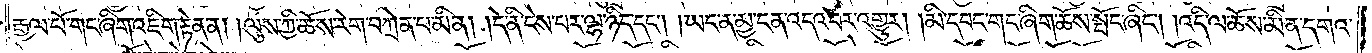རྒྱལ་པོ་གང་ཞིག་འཇིག་རྟེན་ན། །ལུས་ཀྱི་ཆོས་རེག་བཀྲེན་པ་མིན། །དེ་ནི་ངེས་པར་ལྷ་ཉིད་དང༌། །ཡང་ན་མྱ་ངན་འདའ་བར་འགྱུར། །མི་དབང་གང་ཞིག་ཆོས་སྤོང་ཞིང༌། །འདི་ལ་ཆོས་མིན་དགའ་
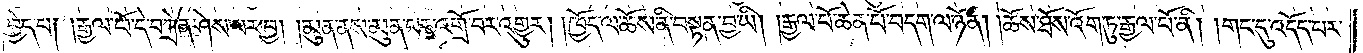བྱེད་པ། །རྒྱལ་པོ་དེ་བཀྲེན་ཤེས་པར་བྱ། །མུན་ནས་མུན་པར་འགྲོ་བར་འགྱུར། །ཁྱོད་ལ་ཆོས་ནི་བསྟན་བྱ་ཡི། །རྒྱལ་པོ་ཆེན་པོ་བདག་ལ་ཉོན། །ཆོས་ཐོས་འོག་ཏུ་རྒྱལ་པོ་ནི། །གང་དུ་འདོད་པར་
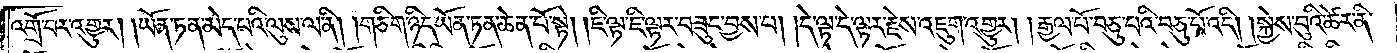འགྲོ་བར་འགྱུར། །ཡོན་ཏན་མེད་པའི་ལུས་ལ་ནི། །གཅིག་ཉིད་ཡོན་ཏན་ཆེན་པོ་སྟེ། །ཇི་ལྟ་ཇི་ལྟར་བཟུང་བྱས་པ། །དེ་ལྟ་དེ་ལྟར་རྗེས་འཇུག་འགྱུར། །རྒྱལ་པོ་བཅུ་པའི་བཅུ་པོ་འདི། །སྐྱེས་བུའི་ཚེར་ནི་
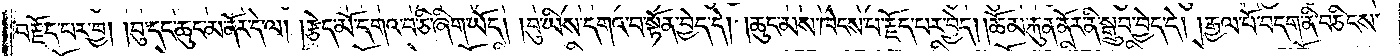བརྗོད་པར་བྱ། །བུ་དང་ཆུང་མ་ནོར་དེ་ལ། །རྩེད་མོ་དགའ་བ་ཅི་ཞིག་ཡོད། །བུ་ཡིས་དགའ་བ་སྟོན་བྱེད་དེ། །ཆུང་མས་ཁེངས་པ་རྗོད་པར་བྱེད། །ཆོམ་རྐུན་ནོར་ནི་སྒྲུབ་བྱེད་དེ། །རྒྱལ་པོ་བདག་ནི་བཅིངས་
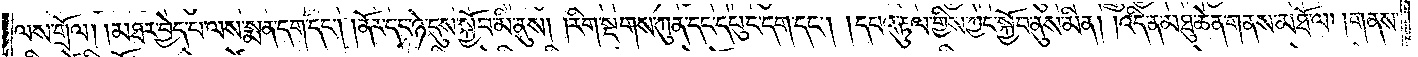ལས་གྲོལ། །མཐར་བྱེད་པ་ལས་སྨན་དག་དང༌། །ནོར་དང་ཉེ་དུས་སྐྱོ་བ་མི་ནུས། །རིག་སྔགས་ཀུན་དང་དཔུང་དག་དང༌། །དཔའ་རྟུལ་གྱིས་ཀྱང་སྐྱོབ་ནུས་མིན། །འདི་ན་མཐུ་ཆེན་གནས་མཐོལ། །གནས་
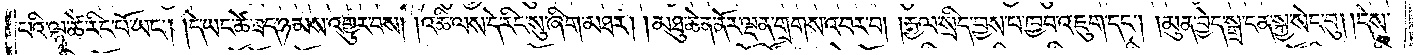པའི་ལྷ་ཚེ་རིང་པོ་ཡང༌། །དེ་ཡང་ཚེ་ཟད་ཉམས་འགྱུར་བས། །འཆི་ལས་དེ་རིང་སུ་ཞིག་མཐར། །མཐུ་ཆེན་ནོར་ལྡན་གྲགས་འབར་བ། །རྒྱལ་སྲིད་བྱས་པ་ཁྱབ་འཇུག་དང༌། །མུན་བྱེད་སྒྲ་ངན་སྐྱ་སེང་བུ། །དེས་
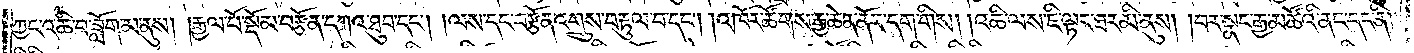ཀྱང་འཆི་བ་ཟློག་མ་ནུས། །རྒྱལ་པོ་སྡོམ་བརྩོན་དཀའ་ཐུབ་དང༌། །ལས་དང་བརྩོན་འགྲུས་བརྟུལ་བ་དང༌། །འཁོར་ཚོགས་རྒྱ་ཆེན་ནོར་དག་གིས། །འཆི་ལས་ཇི་ལྟར་ཐར་མི་ནུས། །བར་སྣང་རྒྱ་མཚོའི་ནང་དང་ནི། །
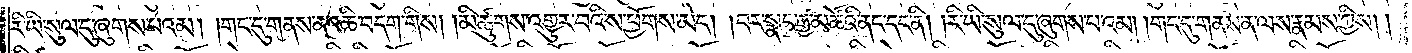རི་ཡི་སུལ་དུ་ཞུགས་པའམ། །གང་དུ་གནས་ན་འཆི་བདག་གིས། །མི་ཚུགས་འགྱུར་བའི་ས་ཕྱོགས་མེད། །བར་སྣང་རྒྱ་མཚོའི་ནང་དང་ནི། །རི་ཡི་སུལ་དུ་ཞུགས་པའམ། །གང་དུ་གནས་ན་ལས་རྣམས་ཀྱིས། །
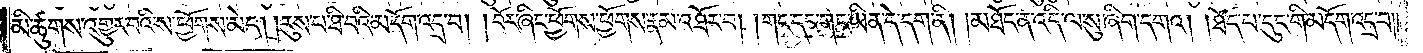མི་ཚུགས་འགྱུར་བའི་ས་ཕྱོགས་མེད། །རུས་པ་ཐི་བའི་མདོག་འདྲ་བ། །བོར་ཞིང་ཕྱོགས་ཕྱོགས་རྣམ་འཐོར་བ། །གང་དང་གང་ཡིན་དེ་དག་ནི། །མཐོང་ན་འདི་ལ་སུ་ཞིག་དགའ། །ཐོད་པ་དུང་གི་མདོག་འདྲ་བ༎
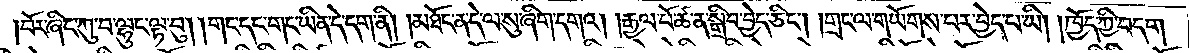།བོར་ཞིང་ཀུ་བ་ལྷུང་ལྟ་བུ། །གང་དང་གང་ཡིན་དེ་དག་ནི། །མཐོང་ན་དེ་ལ་སུ་ཞིག་དགའ། །རྒྱལ་པོ་ཚ་ན་སྒྲིབ་བྱེད་ཅིང༌། །གྲང་ལ་གཡོགས་པར་བྱེད་པ་ཡི། །ཁྱོད་ཀྱི་བདག་
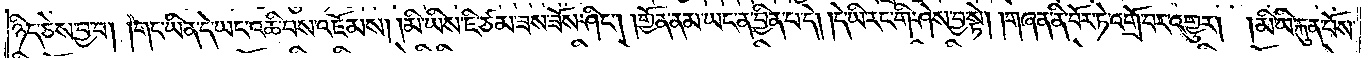ཉིད་ཅེས་བྱ་བ། །གང་ཡིན་དེ་ཡང་འཆི་བས་འཇོམས། །མི་ཡིས་ཇི་ཙམ་ཟས་ཟོས་ཤིང༌། །གྱོན་ནམ་ཡང་ན་བྱིན་པ་དེ། །དེ་ཡི་རང་གི་ཤེས་བྱ་སྟེ། །གཞན་ནི་བོར་ཏེ་འགྲོ་བར་འགྱུར། །མི་ཡི་རྐུན་པོས་
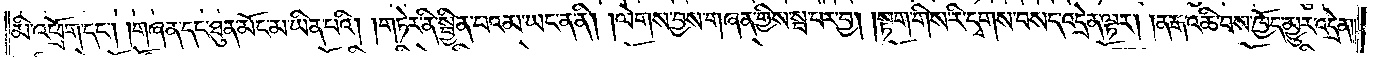མི་འཕྲོག་དང༌། །གཞན་དང་ཐུན་མོང་མ་ཡིན་པའི། །གཏེར་ནི་སྦྱིན་པའམ་ཡང་ན་ནི། །ལེགས་བྱས་གཞན་གྱིས་སྦ་པར་བྱ། །སྟག་གིས་རི་དྭགས་བསད་འདྲེན་ལྟར། །ན་རྒ་འཆི་བས་ཁྱོད་མྱུར་འདྲེན༎
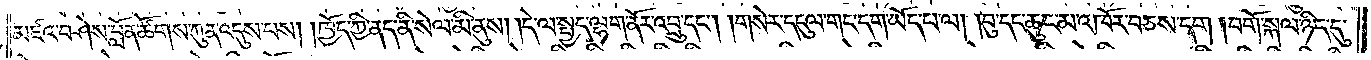མཛའ་བཤེས་བློན་ཚོགས་ཀུན་འདུས་པས། །ཁྱོད་ཀྱི་ནད་ནི་སེལ་མི་ནུས། །དེ་ལ་སྤྱད་ལྷག་ནོར་འབྲུ་དང༌། །གསེར་དངུལ་གང་དག་ཡོད་པ་ལ། །བུ་དང་ཆུང་མ་འཁོར་བཅས་དག །བགོ་སྐལ་ཉིད་དུ་
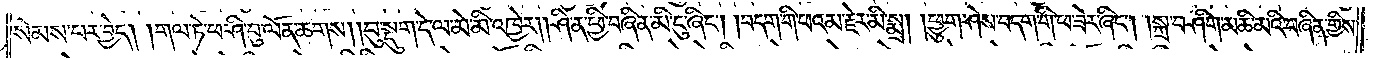སེམས་པར་བྱེད། །གལ་ཏེ་ཕ་ཤི་བུ་ལོན་ཆགས། །བུ་སྡུག་དེ་ལ་མེ་མི་འཁྱེར། །ཤི་ན་ཕྱི་བཞིན་མི་ངུ་ཞིང༌། །བདག་གི་ཕའམ་རྗེར་མི་སྨྲ། །ཕྱུག་ཤེས་བདག་གི་ཕ་ཟེར་ཞིང༌། །སྐྲ་བཤིག་མཆི་མའི་བཞིན་གྱིས
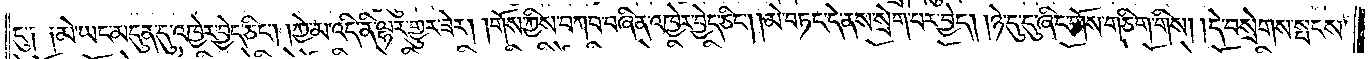དུ༑ ༑མེ་ཡང་མདུན་དུ་འཁྱེར་བྱེད་ཅིང༌། །ཀྱེ་མ་འདི་ནི་ལྷར་གྱུར་ཟེར། །གོས་ཀྱིས་བཀབ་བཞིན་འཁྱེར་བྱེད་ཅིང༌། །མེ་བཏང་དེ་ནས་སྲེག་པར་བྱེད། །ཉེ་དུ་དུ་ཞིང་གོས་གཅིག་གིས། །དེ་བསྲེགས་སྤངས་
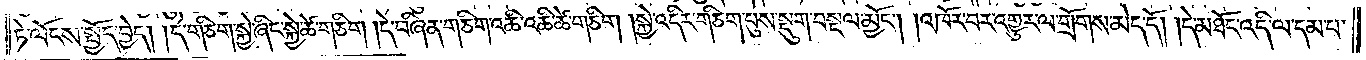ཏེ་ལོངས་སྤྱོད་བྱེད། །དེ་གཅིག་སྐྱེ་ཞིང་སྐྱེ་ཚེ་གཅིག །དེ་བཞིན་གཅིག་འཆི་འཆི་ཚེ་གཅིག །སྐྱེ་འདིར་གཅིག་པུས་སྡུག་བསྔལ་མྱོང༌། །འཁོར་བར་འགྱུར་ལ་གྲོགས་མེད་དོ། །དེ་མཐོང་འདི་ལ་དམ་པ་
